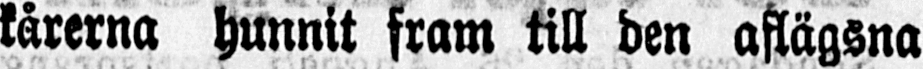kårerna hunnit fram till den aflägsna
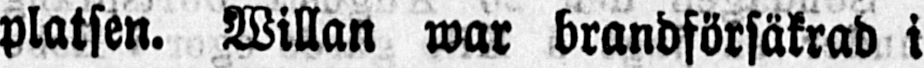platsen. Willan war brandförsäkrad i
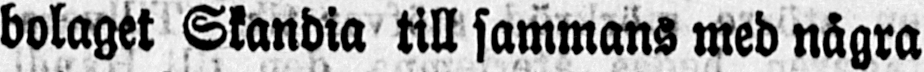bolaget Skandia till sammans med några
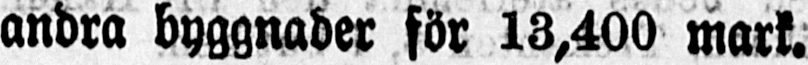andra byggnader för 13,400 mark.
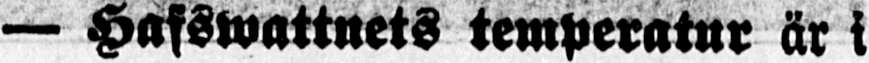— Hafswattnets temperatur är i
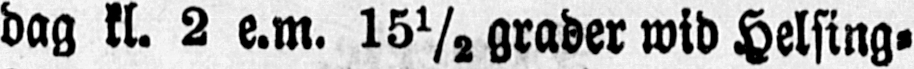dag kl. 2 e.m. 15½ grader wid Helsing-
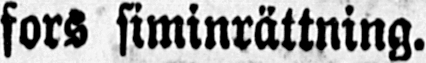fors siminrättning.
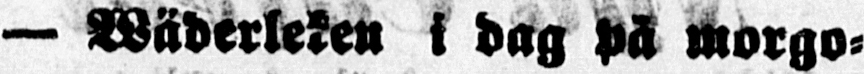— Wäderleken i dag på morgo-
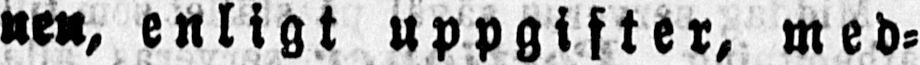nen, enligt uppgifter, med-
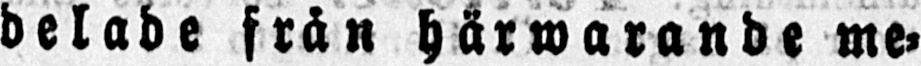delade från härwarande me-
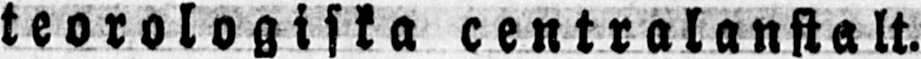teorologiska centralanstalt.
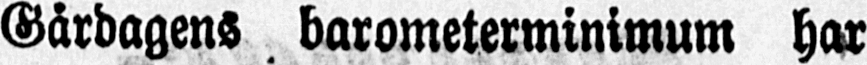Gårdagens barometerminimum har
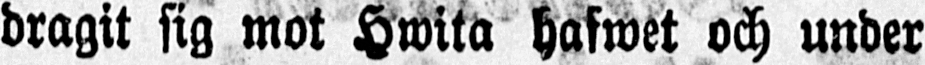dragit sig mot Hwita hafwet och under
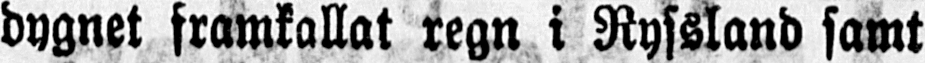dygnet framkallat regn i Ryssland samt
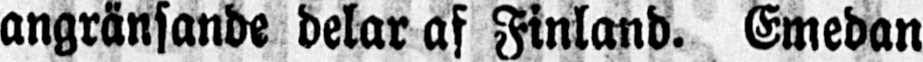angränsande delar af Finland. Emedan
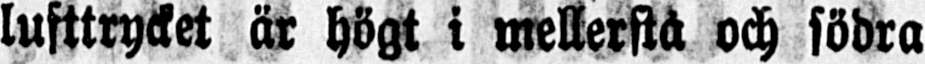lufttrycket är högt i mellersta och södra
